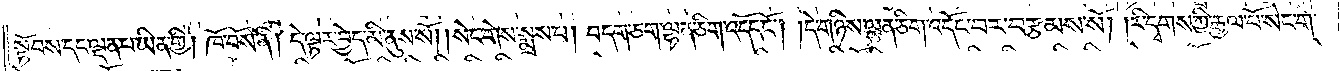སྟོབས་དང་ལྡན་པ་ཡིན་གྱི། ཁོ་བོས་ནི། དེ་ལྟར་བྱེད་མི་ནུས་སོ། །སེང་གེས་སྨྲས་པ། བདག་ཅག་ལྷན་ཅིག་འདོང་ངོ༌། །དེ་གཉིས་ལྷན་ཅིག་འདོང་བར་བརྩམས་སོ། །རི་དྭགས་ཀྱི་རྒྱལ་པོ་སེང་གེ་
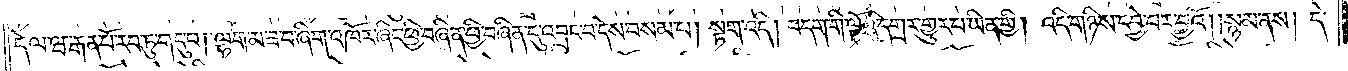དེ་ལ་ཝ་རྒན་པོ་རབ་ཏུ་གདུ་བ། ལྷག་མ་ཟ་བ་ཞིག་འཁོར་ཞིང་ཕྱི་བཞིན་ཕྱི་བཞིན་དུ་འབྲང་བ་དེས་བསམ་པ། སྟག་འདི། བདག་གི་ལྟོའི་དགྲར་གྱུར་པ་ཡིན་གྱི། འདི་གཉིས་དབྱེ་བར་བྱའོ། །སྙམ་ནས། དེ་
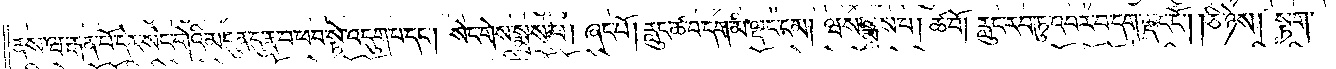ནས་ཝ་རྒན་པོ་དེར་སེང་གེའི་མདུན་དུ་རྣ་བ་ཕབ་སྟེ་འདུག་པ་དང༌། སེང་གེས་སྨྲས་པ། ཞང་པོ། རླུང་ཚ་བ་དག་མི་ལྡང་ངམ། ཝས་སྨྲས་པ། ཚ་བོ། རླུང་རབ་ཏུ་འབར་བདག་ལྡང་ངོ༌། །ཅི་ཉེས། སྟག་
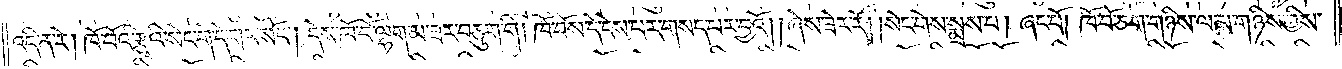འདི་ན་རེ། ཁོ་བོའི་རྩྭའི་སེང་གེ་དེ་གར་སོང༌། དེས་ཁོ་བོ་ལྷག་མ་ཟར་བཅུག་གི། ཁོ་བོས་དེ་ངེས་པར་གསད་པར་བྱའོ། །ཞེས་ཟེར་རོ། །སེང་གེས་སྨྲས་པ། ཞང་པོ། ཁོ་བོ་ཅག་གཉིས་ལ་མ་གཉིས་ཀྱིས་
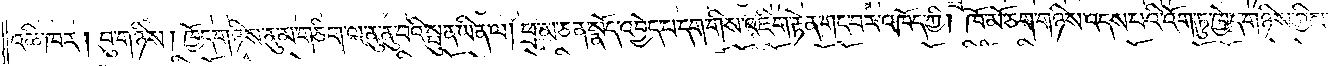འཆི་ཁར། བུ་གཉིས། ཁྱོད་གཉིས་ནུ་མ་གཅིག་ལ་ནུ་ནུ་བའི་སྤུན་ཡིན་ལ། ཕྲ་མ་ཅན་སྣོད་འབྱེད་པ་དག་གིས་འཇིག་རྟེན་གང་བར་འཁོད་ཀྱི། ཁོ་མོ་ཅག་གཉིས་འདས་པའི་འོག་ཏུ་ཁྱེད་གཉིས་ཀྱིས་
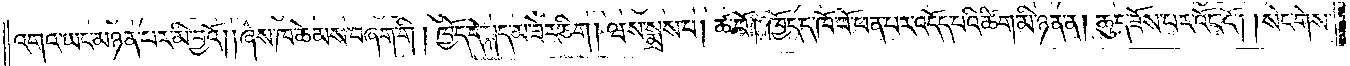འགའ་ཡང་མཉན་པར་མི་བྱའོ། །ཞེས་ཁ་ཆེམས་བཞག་གི། ཁྱོད་དེ་སྐད་མ་ཟེར་ཅིག །ཝས་སྨྲས་པ། ཚ་བོ། ཁྱོད་ད་ཁོ་བོ་ཕན་པར་འདོད་པའི་ཚིག་མི་ཉན་ན། ཆུད་ཟོས་པར་འོང་ངོ༌། །སེང་གེས་
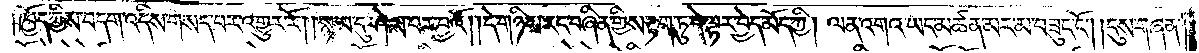ཁྱོད་ཀྱིས་བདག་འདིས་གསད་པར་འགྱུར་རོ། །སྙམ་དུ་ཤེས་པར་བྱའོ། །དེ་གཉིས་རང་བཞིན་གྱིས་རྟག་ཏུ་དེ་ལྟར་བྱེད་མོད་ཀྱི། ལན་འགའ་ཡང་མཚན་མར་མ་བཟུང་ངོ༌། །དུས་གཞན་
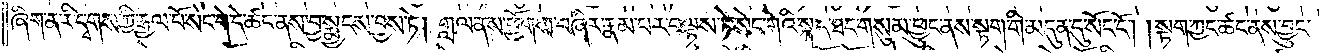ཞིག་ན་རི་དྭགས་ཀྱི་རྒྱལ་པོ་སེང་གེ་དེ་ཚང་ནས་བྱ་སྨྱངས་བྱས་ཏེ། གླལ་ནས་ཕྱོགས་བཞིར་རྣམ་པར་བལྟས་ཏེ་སེང་གེའི་སྐད་ཐང་གསུམ་ཕྱུང་ནས་སྟག་གི་མདུན་དུ་སོང་ངོ༌། །སྟག་ཀྱང་ཚང་ནས་བྱུང་
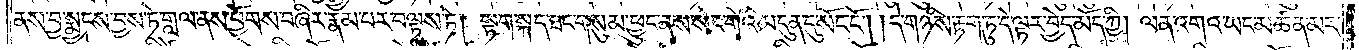ནས་བྱ་སྨྱངས་བྱས་ཏེ་གླལ་ནས་ཕྱོགས་བཞིར་རྣམ་པར་བལྟས་ཏེ། སྟག་སྐད་ཐང་གསུམ་ཕྱུང་ནས་སེང་གེའི་མདུན་དུ་སོང་ངོ༌། །དེ་གཉིས་རྟག་ཏུ་དེ་ལྟར་བྱེད་མོད་ཀྱི། ལན་འགའ་ཡང་མཚན་མར་
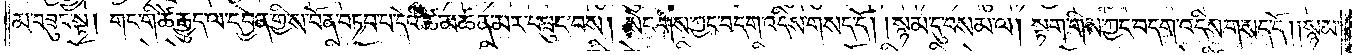མ་བཟུང་སྟེ། གང་གི་ཚེ་རྒྱུད་ལ་དབྱེན་གྱི་ས་བོན་བཏབ་པ་དེའི་ཚེ་མཚན་མར་བཟུང་བས། སེང་གེས་ཀྱང་བདག་འདིས་གསད་དོ། །སྙམ་དུ་བསམ་ལ། སྟག་གིས་ཀྱང་བདག་འདིས་གསད་དོ། །སྙམ་
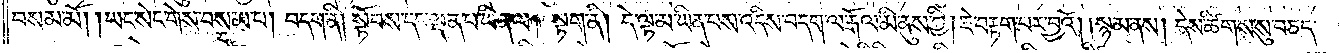བསམ་མོ། །ཡང་སེང་གེས་བསམ་པ། བདག་ནི། སྟོབས་དང་ལྡན་པ་ཡིན་ལ། སྟག་ནི། དེ་ལྟ་མ་ཡིན་པས་འདིས་བདག་ལ་རྒོལ་མི་ནུས་ཀྱི། ཇེ་བརྟག་པར་བྱའོ། །སྙམ་ནས། དེས་ཚིགས་སུ་བཅད་
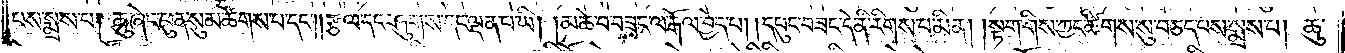པས་སྨྲས་པ། ཆུ་ཞེང་ཕུན་སུམ་ཚོགས་པ་དང༌། །རྩལ་དང་ཤུགས་དང་ལྡན་པ་ཡི། །མཆེ་བ་བཟང་ལ་རྒོལ་བྱེད་པ། །དཔུང་བཟང་དེ་ནི་རིགས་པ་མིན། །སྟག་གིས་ཀྱང་ཚིགས་སུ་བཅད་པས་སྨྲས་པ། ཆུ་
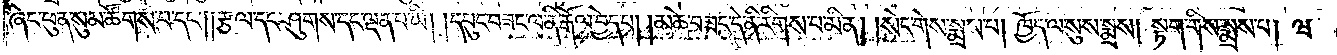ཞེང་ཕུན་སུམ་ཚོགས་པ་དང༌། །རྩལ་དང་ཤུགས་དང་ལྡན་པ་ཡི། །དཔུང་བཟང་ལ་ནི་རྒོལ་བྱེད་པ། །མཆེ་བཟང་དེ་ནི་རིགས་པ་མིན། །སེང་གེས་སྨྲས་པ། ཁྱོད་ལ་སུས་སྨྲས། སྟག་གིས་སྨྲས་པ། ཝ་
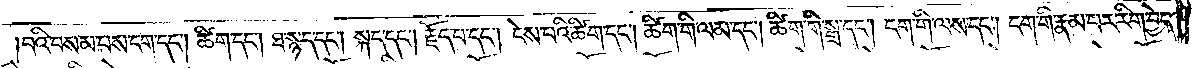བའི་བསམ་པས་ངག་དང༌། ཚིག་དང༌། ཐ་སྙད་དང༌། སྐད་དང༌། རྗོད་པ་དང༌། ངེས་པའི་ཚིག་དང༌། ཚིག་གི་ལམ་དང༌། ཚིག་གི་སྒྲ་དང༌། ངག་གི་ལས་དང༌། ངག་གི་རྣམ་པར་རིག་བྱེད་
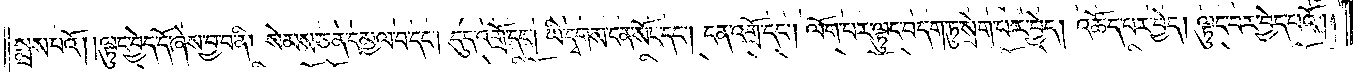སྨྲས་པའོ། །ལྟུང་བྱེད་དོ་ཞེས་བྱ་བ་ནི། སེམས་ཅན་དམྱལ་བ་དང༌། དུད་འགྲོ་དང༌། ཡི་དྭགས་ངན་སོང་དང༌། ངན་འགྲོ་དང༌། ལོག་པར་ལྟུང་བདག་ཏུ་སྲེག་པར་བྱེད། འཚོད་པར་བྱེད། ལྟུང་བར་བྱེད་པའོ། །
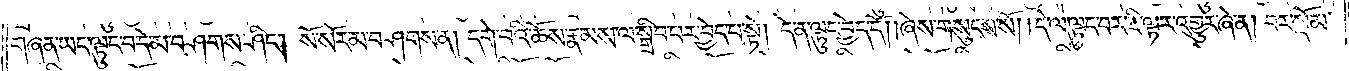གཞན་ཡང་ལྟུང་བ་དེ་མ་བཤགས་ཤིང༌། སོ་སོར་མ་བཤགས་ནས། དགེ་བའི་ཆོས་རྣམས་ལ་སྒྲིབ་པར་བྱེད་པ་སྟེ། དེ་ན་ལྟུང་བྱེད་དོ། །ཞེས་གསུངས་སོ། །དེ་ལ་ལྟུང་བར་ཇི་ལྟར་འགྱུར་ཞེ་ན། བར་སྡོམ་
